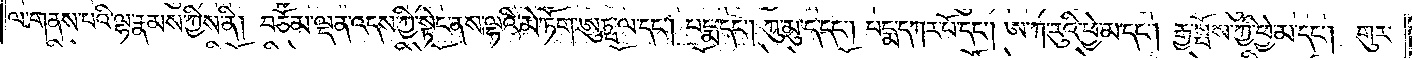ལ་གནས་པའི་ལྷ་རྣམས་ཀྱིས་ནི། བཅོམ་ལྡན་འདས་ཀྱི་སྟེང་ནས་ལྷའི་མེ་ཏོག་ཨུཏྤ་ལ་དང༌། པདྨ་དང༌། ཀུ་མུ་ད་དང༌། པདྨ་དཀར་པོ་དང༌། ཨ་ཀ་རུའི་ཕྱེ་མ་དང༌། རྒྱ་སྤོས་ཀྱི་ཕྱེ་མ་དང༌། གུར་
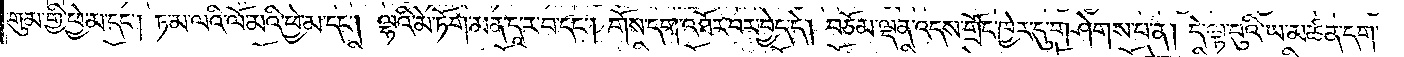གུམ་གྱི་ཕྱེ་མ་དང༌། ཏ་མ་ལའི་ལོ་མའི་ཕྱེ་མ་དང༌། ལྷའི་མེ་ཏོག་མན་དཱ་ར་བ་དང༌། གོས་དག་འཐོར་བར་བྱེད་དེ། བཅོམ་ལྡན་འདས་གྲོང་ཁྱེར་དུ་གཤེགས་པ་ན། དེ་ལྟ་བུའི་ཡ་མཚན་དག་
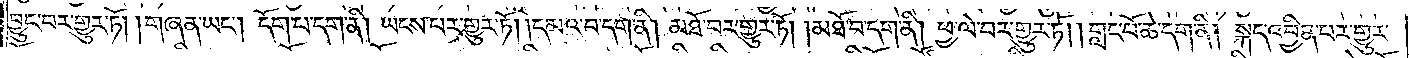བྱུང་བར་གྱུར་ཏོ། །གཞན་ཡང༌། དོག་པ་དག་ནི། ཡངས་པར་གྱུར་ཏོ། །དམའ་བ་དག་ནི། མཐོ་བར་གྱུར་ཏོ། །མཐོ་བ་དག་ནི། ཕྱ་ལེ་བར་གྱུར་ཏོ། །གླང་པོ་ཆེ་དག་ནི། སྐད་འབྱིན་པར་གྱུར་
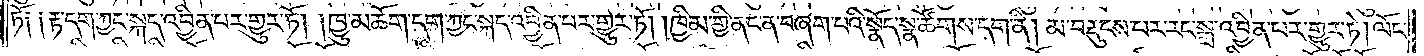ཏོ༑ ༑རྟ་དག་ཀྱང་སྐད་འབྱིན་པར་གྱུར་ཏོ། །ཁྱུ་མཆོག་དག་ཀྱང་སྐད་འབྱིན་པར་གྱུར་ཏོ། །ཁྱིམ་གྱི་ནང་ན་བཞག་པའི་སྣོད་སྣ་ཚོགས་དག་ནི། མ་བརྡུངས་པར་རང་སྒྲ་འབྱིན་པར་གྱུར་ཏེ། ལོང་
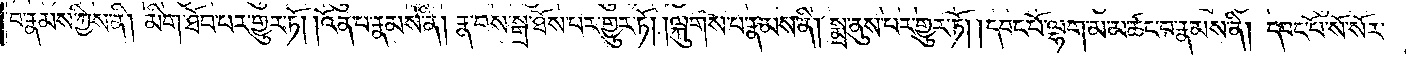བ་རྣམས་ཀྱིས་ནི། མིག་ཐོབ་པར་གྱུར་ཏོ། །འོན་པ་རྣམས་ནི། རྣ་བས་སྒྲ་ཐོས་པར་གྱུར་ཏོ། །ལྐུགས་པ་རྣམས་ནི། སྨྲ་ནུས་པར་གྱུར་ཏོ། །དབང་པོ་ལྷག་མ་མ་ཚང་བ་རྣམས་ནི། དབང་པོ་སོ་སོར་
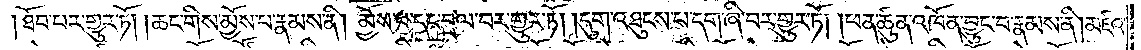།ཐོབ་པར་གྱུར་ཏོ། །ཆང་གིས་མྱོས་པ་རྣམས་ནི། མྱོས་པ་དང་བྲལ་བར་གྱུར་ཏོ། །དུག་འཐུངས་པ་དག་ཞི་བར་གྱུར་ཏོ། །ཕན་ཚུན་འཁོན་བྱུང་བ་རྣམས་ནི། མཛའ་
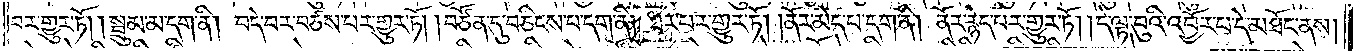བར་གྱུར་ཏོ། །སྦྲུམ་མ་དག་ནི། བདེ་བར་བཙས་པར་གྱུར་ཏོ། །བཙོན་དུ་བཅིངས་པ་དག་ནི། ཐར་པར་གྱུར་ཏོ། །ནོར་མེད་པ་དག་ནི། ནོར་རྙེད་པར་གྱུར་ཏོ། །དེ་ལྟ་བུའི་འབྱོར་པ་དེ་མཐོང་ནས།
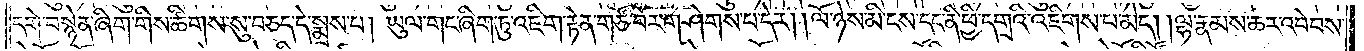དགེ་བསྙེན་ཞིག་གིས་ཚིགས་སུ་བཅད་དེ་སྨྲས་པ། ཡུལ་གང་ཞིག་ཏུ་འཇིག་རྟེན་གཙོ་བོར་གཤེགས་པ་དེར། །ལོ་ཉེས་མི་ངས་དང་ནི་ཕྱི་དགྲའི་འཇིགས་པ་མེད། །ལྷ་རྣམས་ཆར་འབེབས་
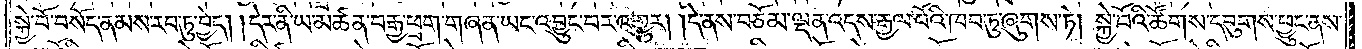སྐྱེ་བོ་བསོད་ནམས་རབ་ཏུ་བྱེད། །དེར་ནི་ཡ་མཚན་རྒྱ་ཕྲག་གཞན་ཡང་འབྱུང་བར་འགྱུར། །དེ་ནས་བཅོམ་ལྡན་འདས་རྒྱལ་པོའི་ཁབ་ཏུ་ཞུགས་ཏེ། སྐྱེ་བོའི་ཚོགས་དབུགས་ཕྱུང་ནས་
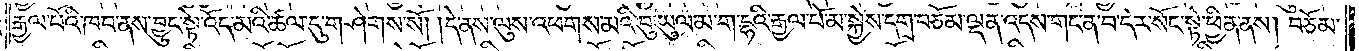རྒྱལ་པོའི་ཁབ་ནས་བྱུང་སྟེ་འོད་མའི་ཚལ་དུ་གཤེགས་སོ། །དེ་ནས་ལུས་འཕགས་མའི་བུ་ཡུལ་མ་ག་དྷའི་རྒྱལ་པོ་མ་སྐྱེས་དགྲ་བཅོམ་ལྡན་འདས་གང་ན་བ་དེར་སོང་སྟེ་ཕྱིན་ནས། བཅོམ་
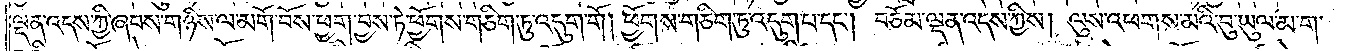ལྡན་འདས་ཀྱིས་ཞབས་གཉིས་ལ་མགོ་བོས་ཕྱག་བྱས་ཏེ་ཕྱོགས་གཅིག་ཏུ་འདུག་གོ། ཕྱོགས་གཅིག་ཏུ་འདུག་པ་དང༌། བཅོམ་ལྡན་འདས་ཀྱིས། ལུས་འཕགས་མའི་བུ་ཡུལ་མ་ག་
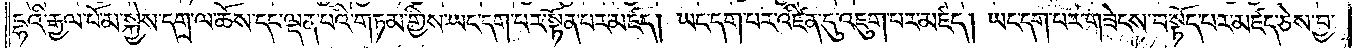དྷའི་རྒྱལ་པོ་མ་སྐྱེས་དགྲ་ལ་ཆོས་དང་ལྡན་པའི་གཏམ་གྱིས་ཡང་དག་པར་སྟོན་པར་མཛད། ཡང་དག་པར་འཛིན་དུ་འཇུག་པར་མཛད། ཡང་དག་པར་གཟེངས་བསྟོད་པར་མཛད་ཅེས་བྱ་
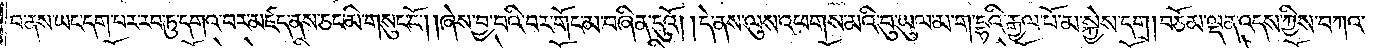བ་ནས་ཡང་དག་པར་རབ་ཏུ་དགའ་བར་མཛད་ནས་ཅང་མི་གསུང་ངོ༌། །ཞེས་བྱ་བའི་བར་གོང་མ་བཞིན་དུའོ། །དེ་ནས་ལུས་འཕགས་མའི་བུ་ཡུལ་མ་ག་དྷའི་རྒྱལ་པོ་མ་སྐྱེས་དགྲ། བཅོམ་ལྡན་འདས་ཀྱིས་བཀའ་
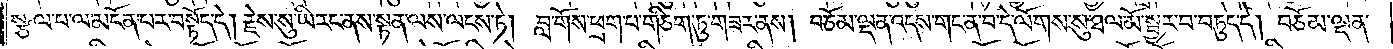སྩལ་པ་ལ་མངོན་པར་བསྟོད་དེ། རྗེས་སུ་ཡི་རང་ནས་སྟན་ལས་ལངས་ཏེ། བླ་གོས་ཕྲག་པ་གཅིག་ཏུ་གཟར་ནས། བཅོམ་ལྡན་འདས་གང་ན་བ་དེ་ལོགས་སུ་ཐལ་མོ་སྦྱར་བ་བཏུད་དེ། བཅོམ་ལྡན་
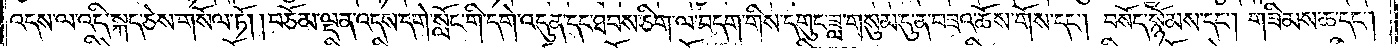འདས་ལ་འདི་སྐད་ཅེས་གསོལ་ཏོ། །བཅོམ་ལྡན་འདས་དགེ་སློང་གི་དགེ་འདུན་དང་ཐབས་ཅིག་ལ་བདག་གིས་དགུང་ཟླ་གསུམ་དུ་ན་བཟའ་ཆོས་གོས་དང༌། བསོད་སྙོམས་དང༌། གཟིམས་ཆ་དང༌།
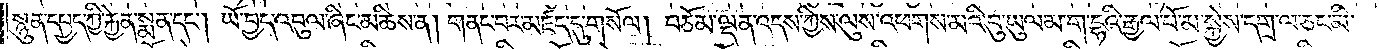སྙུན་དཔྱད་ཀྱི་རྐྱེན་སྨན་དང༌། ཡོ་བྱད་འབུལ་ཞིང་མཆིས་ན། གནང་བར་མཛད་དུ་གསོལ། བཅོམ་ལྡན་འདས་ཀྱིས་ལུས་འཕགས་མའི་བུ་ཡུལ་མ་ག་དྷའི་རྒྱལ་པོ་མ་སྐྱེས་དགྲ་ལ་ཅང་མི་
